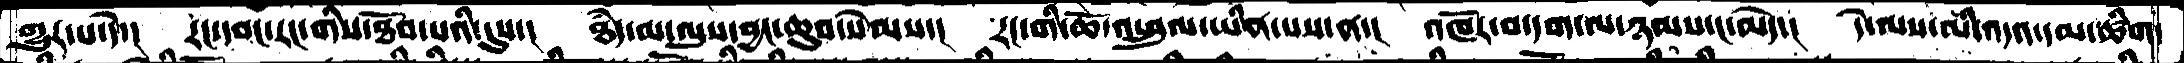གྱུར་པ་དེ་།  རང་དབང་རང་གིས་ཐོབ་པའི་དུས་།  ཐཾད་མ་ལུས་བྱང་ཆུབ་སེམས་།  རང་གི་ཆོ་འཕྲུལ་ཡིན་པས་ན་།  འཁོར་བ་དག་ལ་ཉམས་ང་མེད་།    དེ་ལས་མི་འདའ་དམ་ཚིག་
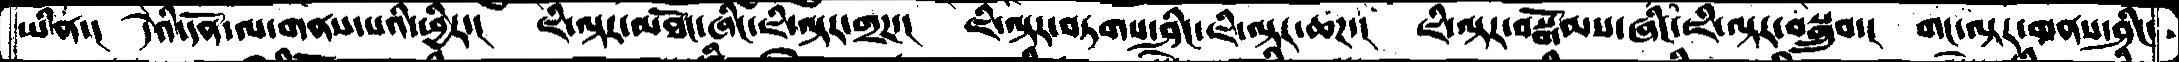ཡིན་།  དེའི་དོན་ལ་གནས་པའི་ཕྱིར་།  ཇི་ལྟར་མཐོང་ཞིང་ཇི་ལྟར་གྲཌ་།  ཇི་ལྟར་བཏགས་ཤིང་ཇི་ལྟར་ཆཌ་།  ཇི་ལྟར་བསྒོམས་ཞིང་ཇི་ལྟར་བསྒྲུབ་།  གང་ལྟར་གནས་ཤིང་
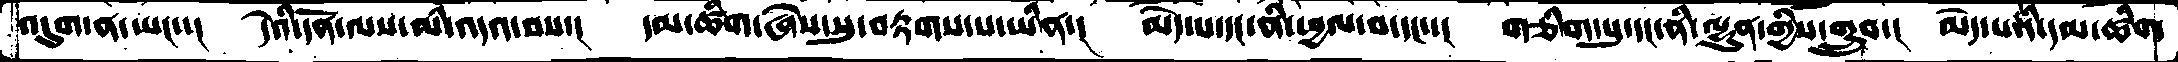འདུག་ན་ཡང་་།  དེའི་དོན་ལས་མི་འདའ་བས་།  དམ་ཚིག་ཞེས་སུ་བརྟགས་པ་ཡིན་།  མེད་པ་དང་ནི་ཕྱལ་བ་དང་་།  གཅིག་པུ་དང་ནི་ལྷུན་གྱིས་གྲུབ་།  མེད་པའི་དམ་ཚིག
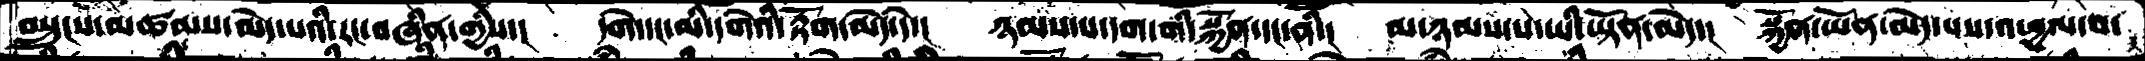བསྲུངས་མཚམས་མེད་པའི་རང་བཞིན་གྱིས་།  དགེ་དང་མི་དགེའི་རྟོག་མེད་དེ་།  ཉམས་པ་དག་གི་སྐྱོན་དང་ནི་།  མ་ཉམས་པ་ཡི་ཡྟོན་མེད་།  སྐྱོན་ཡོན་མེད་པས་འཕྱལ་བ་
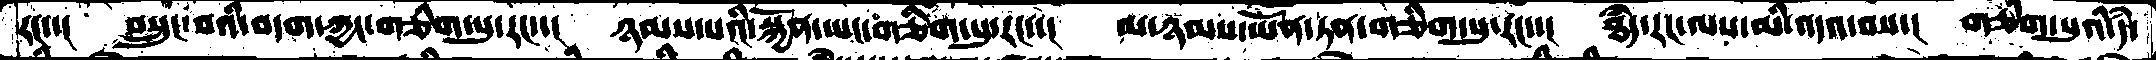རང་་།  བསྲུང་བའི་བདག་ཀྱང་གཅིག་པུ་རང་་།  ཉམས་པའི་སྐྱོན་ཡང་གཅིག་པུ་རང་་།  མ་ཉམས་ཡོན་ཏན་གཅིག་པུ་རང་་།  ཐཾད་རང་ལས་མི་འདའ་བས་།  གཅིག་པུའི་དཾ་
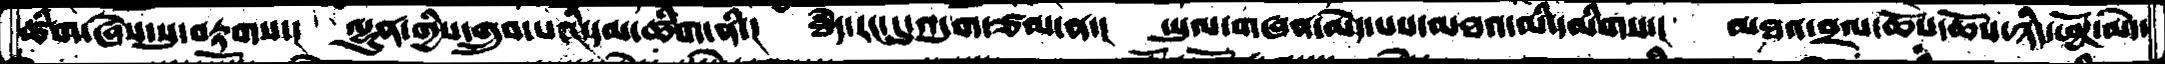ཚིག་ཞེས་སུ་བརྟགས་།  ལྷུན་གྱིས་གྲུབ་པའི་དམ་ཚིག་ནི་།  ཐཾད་རང་དུ་འདུག་ཙམ་ན་།  ཡུལ་གཞན་མེད་པས་མཐའ་མི་དམིགས་།  མཐའ་བྲལ་ཆོས་ཆོས་ཉིད་ཕྱོཌ་མེད་
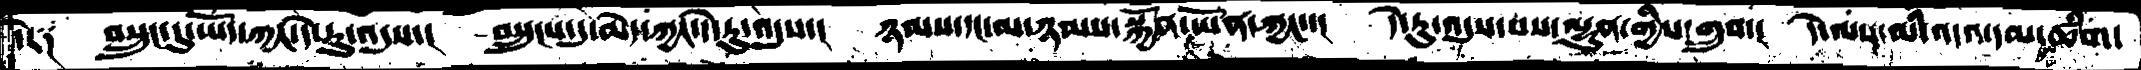དེར༑  བསྲུང་དུ་ཡོད་ཀྱང་དེ་རུ་འདུས་།  བསྲུངས་དུ་མེད་ཀྱང་དེ་རུ་འདུས་།  ཉམས་དང་མ་ཉམས་སྐྱོན་ཡོན་ཀྱང་་།  དེ་རུ་འདུས་པས་ལྷུན་གྱིས་གྲུབ་།  དེ་ལས་མི་འདའ་དམ་ཚིག་
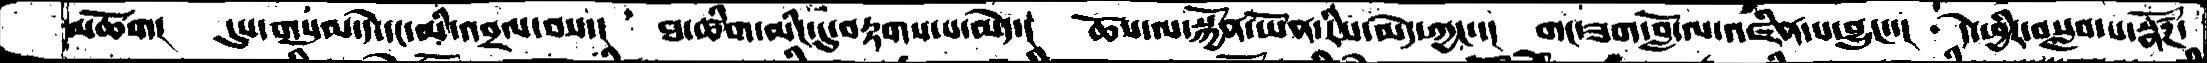མཆོག།  དུས་གསུམ་དེ་དང་མི་འབྲལ་བས་།  ཐ་ཚིག་མིང་དུ་བརྟགས་པ་མེད་།  ཆོས་ལ་སྐྱོན་ཡོན་རིས་མེད་ཀྱང་།  གང་ཟག་བློ་ལ་འཛིན་པ་བྱུང་་།  དེ་ཕྱིར་བསླབ་པ་སྣཚོཌ་
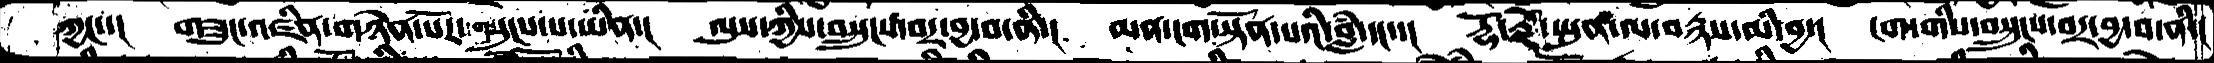ཀྱང་་།  གཟུང་འཛིན་གཉེན་པོར་གསུངས་པ་ཡིན་།  ལུས་ཀྱིས་བསྲུངས་བར་བྱ་བ་ནི་།  མན་ངག་སྟོན་པའི་བླཾ་དང་་།  རྡོ་རྗེ་སྤུན་ལ་བརྙས་མི་བྱ་།  ངག་གིས་བསྲུངས་བར་བྱ་བ་ནི་།
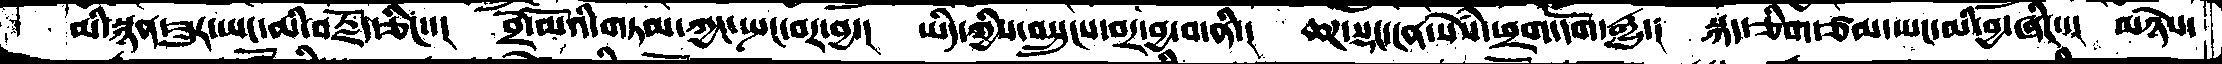མི་སྙན་ཟུར་ཡང་མི་བརྗོད་ཅིང་་།  བྲེ་མོའི་གཏམ་ཀྱང་སྤང་བར་བྱ་།  ཡིད་ཀྱིས་བསྲུངས་བར་བྱ་བ་ནི་།  ཆཌ་སྡང་ངན་སེཾས་ཕྲག་དོག་རྒྱུ་།  སྐད་ཅིག་ཙམ་ཡང་མི་བྱ་ཞིང་་།  མཉེས་
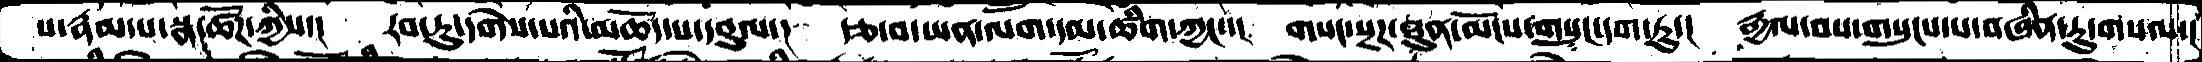པ་རྣམ་པ་སྣ་ཚོཌ་ཀྱིས་།  རབ་ཏུ་དགེས་པའི་མཆོད་པ་དབུལ་།   རྩ་བ་ཡན་ལག་དམ་ཚིག་ཀྱང་་།  གསང་སྔཌ་ཐུན་མོངས་གསུང་དག་ཏུ་།  རྒྱལ་བས་གསུངས་པ་བཞིན་ཏུ་གསལ་།
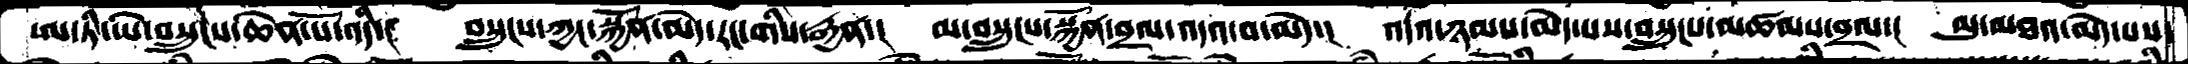ཨ་ཏི་ཡེ་བསྲུངས་ཆེན་པོ་འདི་།   བསྲུངས་ཀྱང་སྐྱོན་མེད་རང་གིས་རྒྱན་།  མ་བསྲུངས་སྐྱོན་བྲལ་འདའ་བ་མེད་།  འདའ་ཉམས་མེད་པས་བསྲུངས་མཚམས་བྲལ་།  མུ་མཐའ་མེད་པས་
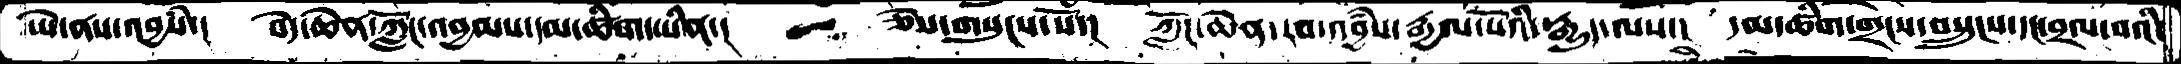ཡེ་ནས་འབྱཾས་།  བདེ་ཆེན་ཀློང་འབྱམས་དམ་ཚིག་ཡིན་།   ཅེས་གསུངས་སོ་།  ཀློང་ཆེན་རབ་འབྱཾས་རྒྱལ་པོའི་རྒྱུད་ལས་།  དམ་ཚིག་གྲངས་བསྲུངས་དང་བྲལ་བའི་
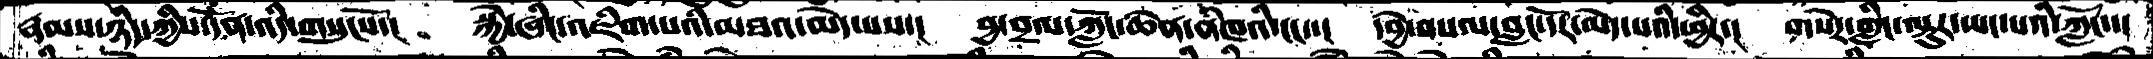རྣམས་ཉིད་ཀྱིས་དོན་འདི་གསུངསོ་།   སྐྱེ་ཞིང་འཇིག་པའི་མཐའ་མེད་པས་།  བྱ་བྲལ་ཀློང་ཆེན་ནཾཁའི་ངང་་།  དབྱེ་བསལ་བླང་དོར་མེད་པའི་ཕྱིར་།  གསེར་གླིང་ལྟུར་ཡང་པའི་ཀློང་་།
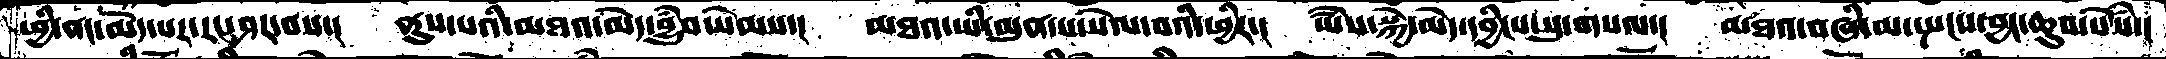ཕྱི་ནང་མེད་པར་རང་ཤར་བས་།  ནུས་པའི་མཐའ་མེད་བྱུཾབ་སེམས་།  མཐའ་ཡི་མུན་པ་སེལ་བའི་ཕྱིར་།  ཡཻས་སྐྱེ་མེད་དབྱིངས་སུ་གསལ་།  མཐའ་བཞི་མ་སྤངས་བྱང་ཆུབ་སེསཾ་།
